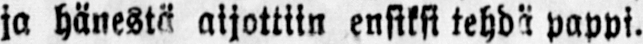ja hänestä aijottiin ensiksi tehdä pappi.
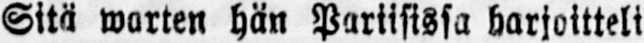Sitä warten hän Pariisissa harjoitteli
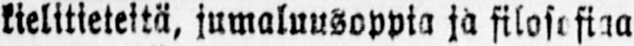kielitieteitä, jumaluusoppia ja filosofiaa
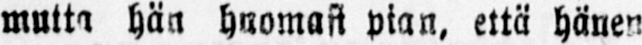mutta hän huomasi pian, että hänen
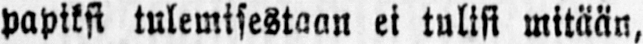papiksi tulemisestaan ei tulisi mitään,
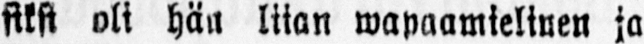siksi oli hän liian wapaamielinen ja
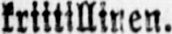kriitillinen.
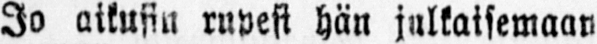Jo aikusin rupest hän julkaisemaan
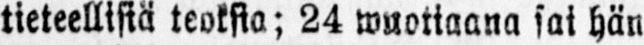tieteellistä teoksia; 24 wuottaana sai hän
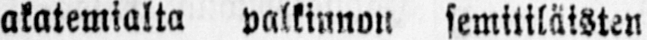akatemialta palkinnon semililäisten
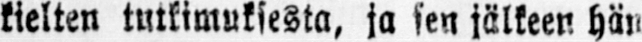kielten tulkimuksesta, ja sen jälkeen hän
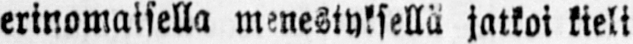erinomaisella menestyksellä jatkoi kieli
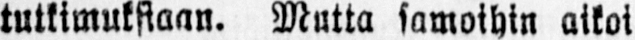tutkimuksiaan. Mutta samoihin aikoi
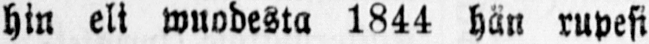hin eli wuodesta 1844 hän rupesi
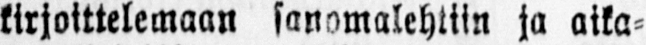kirjoittelemaan sanomalehtiin ja aika-
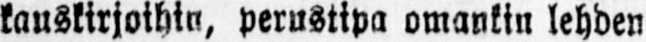kauskirjoihin, perustipa omankin lehden
